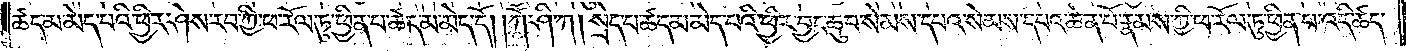ཚད་མ་མེད་པའི་ཕྱིར་ཤེས་རབ་ཀྱི་ཕ་རོལ་ཏུ་ཕྱིན་པ་ཚད་མ་མེད་དོ། །ཀཽ་ཤི་ཀ །སྲེད་པ་ཚད་མ་མེད་པའི་ཕྱིར་བྱང་ཆུབ་སེམས་དཔའ་སེམས་དཔའ་ཆེན་པོ་རྣམས་ཀྱི་ཕ་རོལ་ཏུ་ཕྱིན་པ་འདི་ཚད་
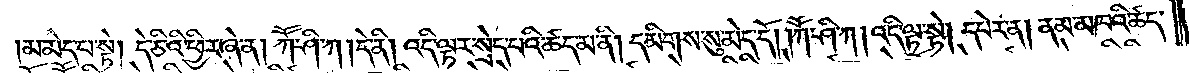མ་མེད་པ་སྟེ། དེ་ཅིའི་ཕྱིར་ཞེ་ན། ཀཽ་ཤི་ཀ །དེ་ནི། འདི་ལྟར་སྲེད་པའི་ཚད་མ་ནི། དམིགས་སུ་མེད་དོ། །ཀཽ་ཤི་ཀ །འདི་ལྟ་སྟེ། དཔེར་ན། ནམ་མཁའི་ཚད་
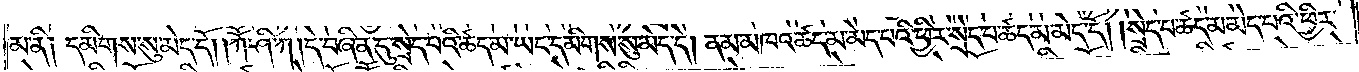མ་ནི། དམིགས་སུ་མེད་དོ། །ཀཽ་ཤི་ཀ། དེ་བཞིན་དུ་སྲེད་པའི་ཚད་མ་ཡང་དམིགས་སུ་མེད་དེ། ནམ་མཁའ་ཚད་མ་མེད་པའི་ཕྱིར་སྲེད་པ་ཚད་མ་མེད་དོ། །སྲེད་པ་ཚད་མ་མེད་པའི་ཕྱིར་
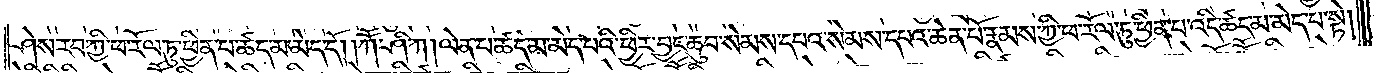ཤེས་རབ་ཀྱི་ཕ་རོལ་ཏུ་ཕྱིན་པ་ཚད་མ་མེད་དོ། །ཀཽ་ཤི་ཀ །ལེན་པ་ཚད་མ་མེད་པའི་ཕྱིར་བྱང་ཆུབ་སེམས་དཔའ་སེམས་དཔའ་ཆེན་པོ་རྣམས་ཀྱི་ཕ་རོལ་ཏུ་ཕྱིན་པ་འདི་ཚད་མ་མེད་པ་སྟེ།
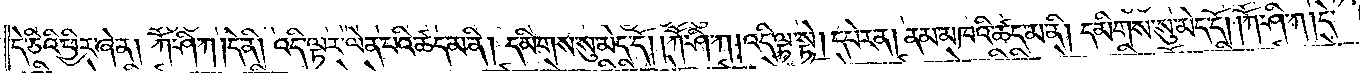དེ་ཅིའི་ཕྱིར་ཞེ་ན། ཀཽ་ཤི་ཀ །དེ་ནི། འདི་ལྟར་ལེན་པའི་ཚད་མ་ནི། དམིགས་སུ་མེད་དོ༎ ཀཽ་ཤི་ཀ །འདི་ལྟ་སྟེ། དཔེར་ན། ནམ་མཁའི་ཚད་མ་ནི། དམིགས་སུ་མེད་དོ། །ཀཽ་ཤི་ཀ །དེ་
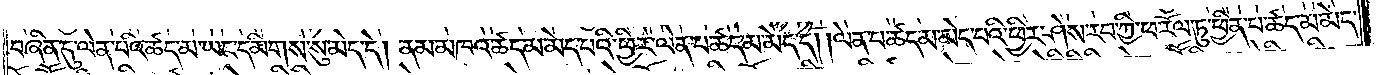བཞིན་དུ་ལེན་པའི་ཚད་མ་ཡང་དམིགས་སུ་མེད་དེ། ནམ་མཁའ་ཚད་མ་མེད་པའི་ཕྱིར་ལེན་པ་ཚད་མ་མེད་དོ། །ལེན་པ་ཚད་མ་མེད་པའི་ཕྱིར་ཤེས་རབ་ཀྱི་ཕ་རོལ་ཏུ་ཕྱིན་པ་ཚད་མ་མེད་
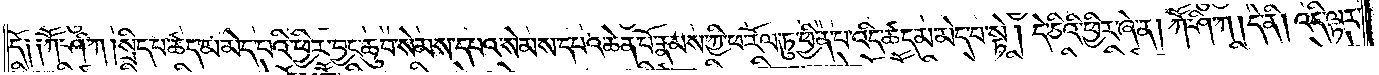དོ༑ ༑ཀཽ་ཤི་ཀ །སྲིད་པ་ཚད་མ་མེད་པའི་ཕྱིར་བྱང་ཆུབ་སེམས་དཔའ་སེམས་དཔའ་ཆེན་པོ་རྣམས་ཀྱི་ཕ་རོལ་ཏུ་ཕྱིན་པ་འདི་ཚད་མ་མེད་པ་སྟེ། དེ་ཅིའི་ཕྱིར་ཞེ་ན། ཀཽ་ཤི་ཀ །དེ་ནི། འདི་ལྟར་
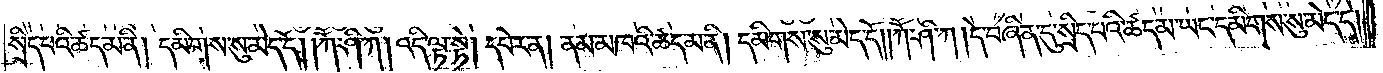སྲིད་པའི་ཚད་མ་ནི། དམིགས་སུ་མེད་དོ། །ཀཽ་ཤི་ཀ །འདི་ལྟ་སྟེ། དཔེར་ན། ནམ་མཁའི་ཚད་མ་ནི། དམིགས་སུ་མེད་དོ། །ཀཽ་ཤི་ཀ །དེ་བཞིན་དུ་སྲིད་པའི་ཚད་མ་ཡང་དམིགས་སུ་མེད་དེ།
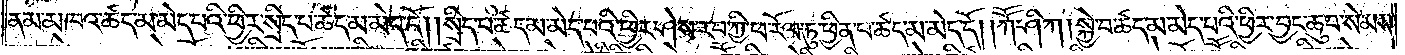ནམ་མཁའ་ཚད་མ་མེད་པའི་ཕྱིར་སྲིད་པ་ཚད་མ་མེད་དོ། །སྲིད་པ་ཚད་མ་མེད་པའི་ཕྱིར་ཤེས་རབ་ཀྱི་ཕ་རོལ་ཏུ་ཕྱིན་པ་ཚད་མེད་དོ། །ཀཽ་ཤི་ཀ །སྐྱེ་བ་ཚད་མ་མེད་པའི་ཕྱིར་བྱང་ཆུབ་སེམས་
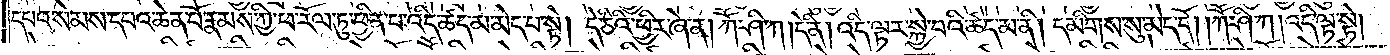དཔའ་སེམས་དཔའ་ཆེན་པོ་རྣམས་ཀྱི་ཕ་རོལ་ཏུ་ཕྱིན་པ་འདི་ཚད་མ་མེད་པ་སྟེ། དེ་ཅིའི་ཕྱིར་ཞེ་ན། ཀཽ་ཤི་ཀ །དེ་ནི། འདི་ལྟར་སྐྱེ་བའི་ཚད་མ་ནི། དམིགས་སུ་མེད་དོ། །ཀཽ་ཤི་ཀ །འདི་ལྟ་སྟེ།
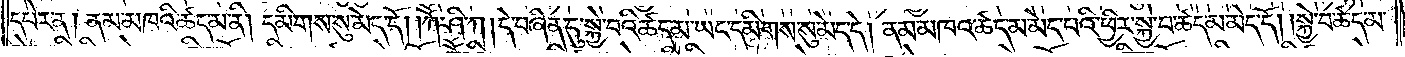དཔེར་ན། ནམ་མཁའི་ཚད་མ་ནི། དམིགས་སུ་མེད་དོ། །ཀཽ་ཤི་ཀ །དེ་བཞིན་དུ་སྐྱེ་བའི་ཚད་མ་ཡང་དམིགས་སུ་མེད་དོ། ནམ་མཁའ་ཚད་མ་མེད་པའི་ཕྱིར་སྐྱེ་བ་ཚད་མ་མེད་དོ། །སྐྱེ་བ་ཚད་མ་
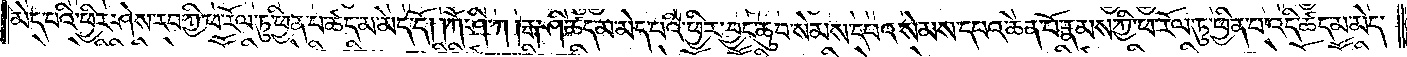མེད་པའི་ཕྱིར་ཤེས་རབ་ཀྱི་ཕ་རོལ་ཏུ་ཕྱིན་པ་ཚད་མ་མེད་དོ། །ཀཽ་ཤི་ཀ །རྒ་ཤི་ཚད་མ་མེད་པའི་ཕྱིར་བྱང་ཆུབ་སེམས་དཔའ་སེམས་དཔའ་ཆེན་པོ་རྣམས་ཀྱི་ཕ་རོལ་ཏུ་ཕྱིན་པ་འདི་ཚད་མ་མེད་
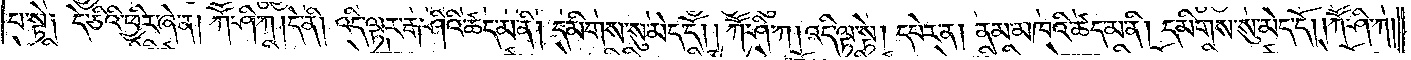པ་སྟེ། དེ་ཅིའི་ཕྱིར་ཞེ་ན། ཀཽ་ཤི་ཀ །དེ་ནི། འདི་ལྟར་རྒ་ཤིའི་ཚད་མ་ནི། དམིགས་སུ་མེད་དོ། །ཀཽ་ཤི་ཀ །འདི་ལྟ་སྟེ། དཔེར་ན། ནམ་མཁའི་ཚད་མ་ནི། དམིགས་སུ་མེད་དོ། ཀཽ་ཤི་ཀ།
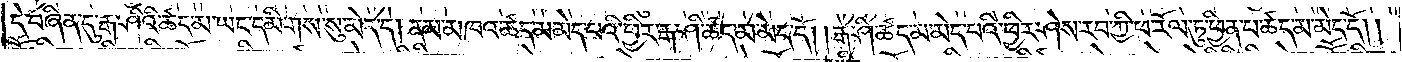དེ་བཞིན་དུ་རྒ་ཤིའི་ཚད་མ་ཡང་དམིགས་སུ་མེད་དེ། ནམ་མཁའ་ཚད་མ་མེད་པའི་ཕྱིར་རྒ་ཤི་ཚད་མ་མེད་དོ། །རྒ་ཤི་ཚད་མ་མེད་པའི་ཕྱིར་ཤེས་རབ་ཀྱི་ཕ་རོལ་ཏུ་ཕྱིན་པ་ཚད་མ་མེད་དོ། །
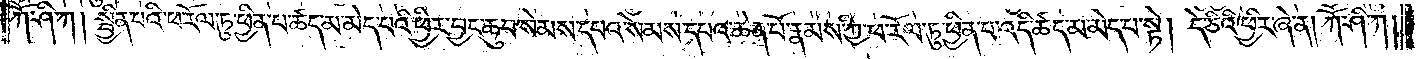ཀཽ་ཤི་ཀ །སྦྱིན་པའི་ཕ་རོལ་ཏུ་ཕྱིན་པ་ཚད་མ་མེད་པའི་ཕྱིར་བྱང་ཆུབ་སེམས་དཔའ་སེམས་དཔའ་ཆེན་པོ་རྣམས་ཀྱི་ཕ་རོལ་ཏུ་ཕྱིན་པ་འདི་ཚད་མ་མེད་པ་སྟེ། དེ་ཅིའི་ཕྱིར་ཞེ་ན། ཀཽ་ཤི་ཀ།
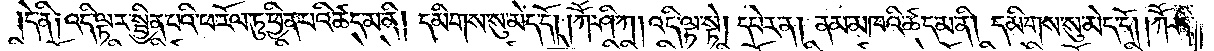དེ་ནི། འདི་ལྟར་སྦྱིན་པའི་ཕ་རོལ་ཏུ་ཕྱིན་པའི་ཚད་མ་ནི། དམིགས་སུ་མེད་དོ། །ཀཽ་ཤི་ཀ །འདི་ལྟ་སྟེ། དཔེར་ན། ནམ་མཁའི་ཚད་མ་ནི། དམིགས་སུ་མེད་དོ། །ཀཽ་ཤི་
